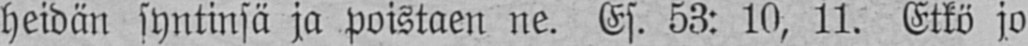heidän syntinsä ja poistaen ne. Es. 53: 10, 11. Etkö jo
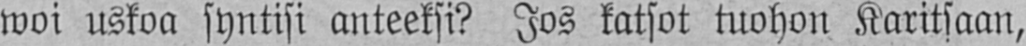woi uskoa syntisi anteeksi? Jos katsot tuohon Karitsaan,
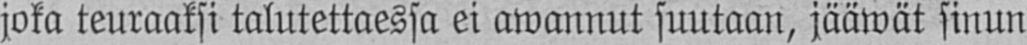joka teuraaksi talutettaessa ei awannut suutaan, jääwät sinun
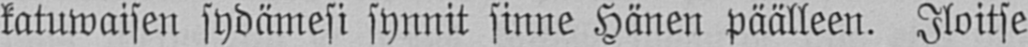katuwaisen sydämesi synnit sinne Hänen päälleen. Iloitse
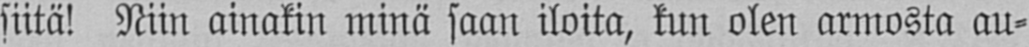siitä! Niin ainakin minä saan iloita, kun olen armosta au-
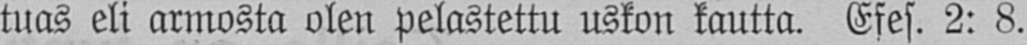tuas eli annosta olen pelastettu uskon kautta. Efes. 2: 8.
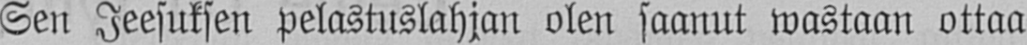Sen Jeesuksen pelastuslahjan olen saanut wastaan ottaa
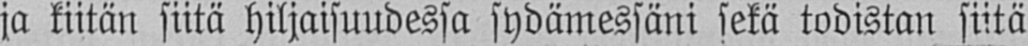ja kiitän siitä hiljaisuudessa sydämessäni sekä todistan siitä
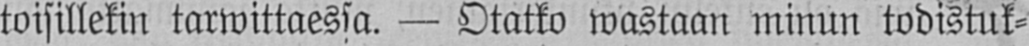toisillekin tarwittaessa. — Otatko wastaan minun todistuk-
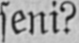seni?
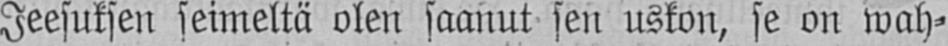Jeesuksen seimeltä olen saanut sen uskon, se on wah-
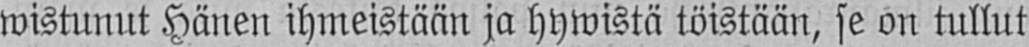wistunut Hänen ihmeistään ja hywistä töistään, se on tullut
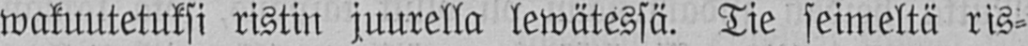wakuutetuksi ristin juurella lewätessä. Tie seimeltä ris-
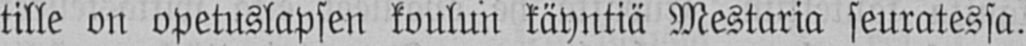tille on opetuslapsen koulun käyntiä Mestaria seuratessa.
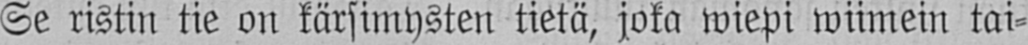Se ristin tie on kärsimysten tietä, joka wiepi wiimein tai-
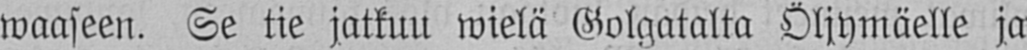waaseen. Se tie jatkuu wielä Golgatalta Öljymäelle ja
